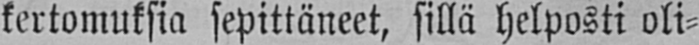kertomuksia sepittäneet, sillä helposti oli-
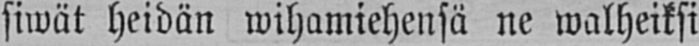siwät heidän wihamiehensä ne walheiksi
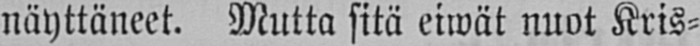näyttäneet. Mutta sitä eiwät nuot Kris-
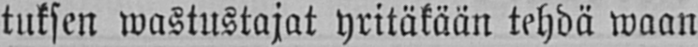tuksen wastustajat yritäkään tehdä waan
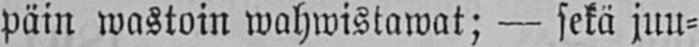Päin wastoin wahwistawat; — sekä juu-
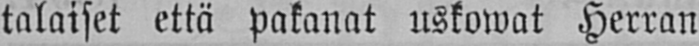talaiset että pakanat uskowat Herran
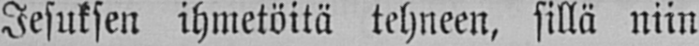Jesuksen ihmetöitä tehneen, sillä niin
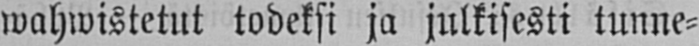wahwistetut todeksi ja julkisesti tunne-
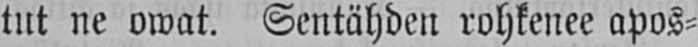tut ne owat. Sentähden rohkenee apos-
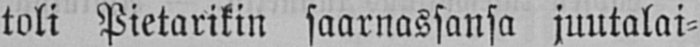toli Pietarikin saarnassansa juutalai-
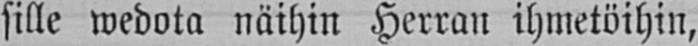sille wedota näihin Herran ihmetöihin,
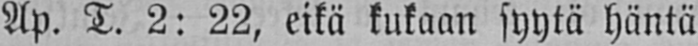Ap. T. 2: 22, eikä kukaan syytä häntä
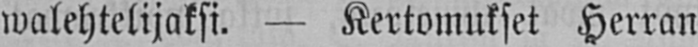walehtelijaksi. — Kertomukset Herran
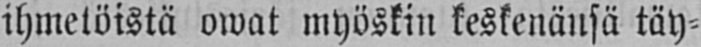ihmetöistä owat myöskin keskenänsä täy-
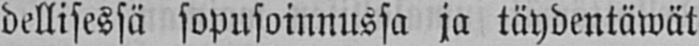dellisessä sopusoinnussa ja täydentäwät
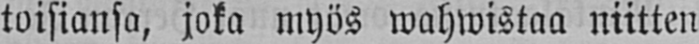toisiansa, joka myös wahwistaa niitten
